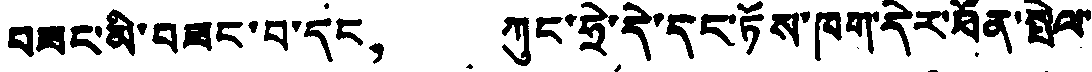བཟང་མི་བཟང་བ་དང， ཀུང་ཧྲེ་དེ་དང་ཏོས་ཁག་དེར་ཐོན་སྤེལ་
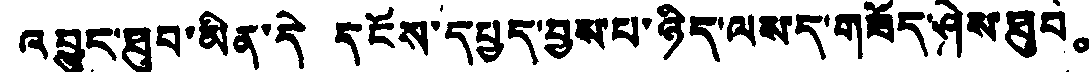འབྱུང་ཐུབ་མིན་དེ དངོས་དཔྱད་བྱས་པ་ཉིད་ལས་ད་གཟོད་ཤེས་ཐུབ。
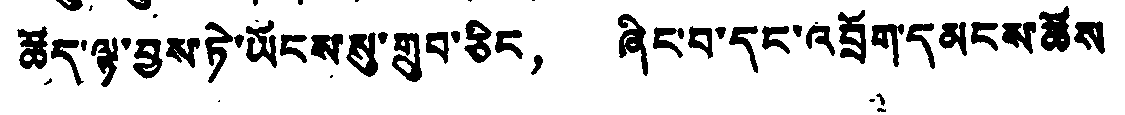ཚོད་ལྟ་བྱས་ཏེ་ཡོངས་སུ་གྲུབ་ཅིང， ཞིང་བ་དང་འབྲོག་དམངས་ཚོས
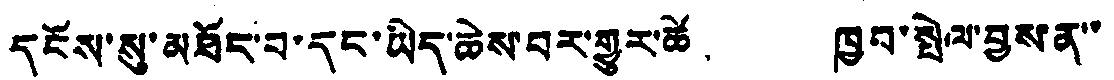དངོས་སུ་མཐོང་བ་དང་ཡིད་ཆེས་བར་གྱུར་ཚེ ཁྱབ་སྤེལ་བྱས་ན་་
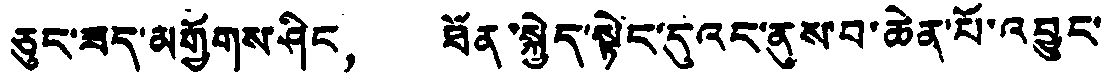ཅུང་ཟད་མགྱོགས་ཤིང， ཐོན་སྐྱེད་སྟེང་དུའང་ནུས་བ་ཆེན་པོ་འབྱུང་
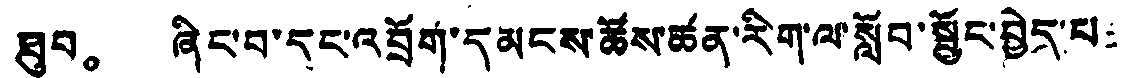ཐུབ。 ཞིང་བ་དང་འབྲོག་དམངས་ཚོས་ཚན་རིག་ལ་སློབ་སྦྱོང་བྱེད་པ
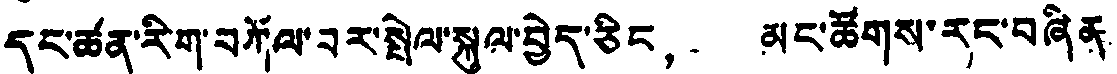དང་ཚན་རིག་བཀོལ་བར་སྤེལ་སྐུལ་བྱེད་ཅིང， མང་ཚོགས་རང་བཞིན
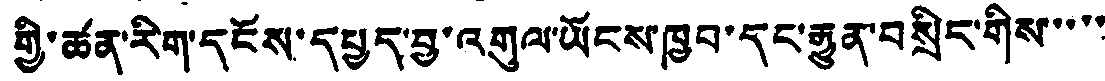གྱི་ཚན་རིག་དངོས་དཔྱད་བྱ་འགུལ་ཡོངས་ཁྱབ་དང་རྒྱུན་བསྲིང་གིས་་་་་
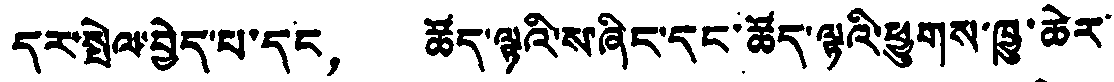དར་སྤེལ་བྱེད་པ་དང， ཚོད་ལྟའི་ས་ཞིང་དང་ཚོད་ལྟའི་ཕྱུགས་ཁྱུ་ཆེར་
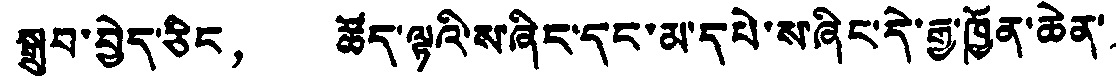སྒྲུབ་བྱེད་ཅིང， ཚོད་ལྟའི་ས་ཞིང་དང་མ་དཔེ་ས་ཞིང་དེ་རྒྱ་ཁྱོན་ཆེན་
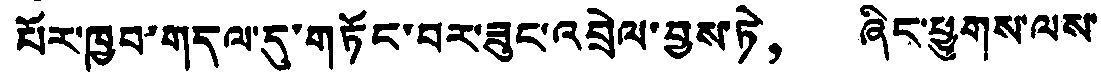པོར་ཁྱབ་གདལ་དུ་གཏོང་བར་ཟུང་འབྲེལ་བྱས་ཏེ， ཞིང་ཕྱུགས་ལས་
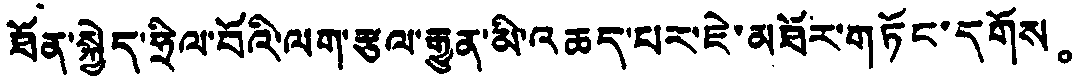ཐོན་སྐྱེད་ཧྲིལ་བོའི་ལག་རྩལ་རྒྱུན་མི་འཆད་པར་ཇེ་མཐོར་གཏོང་དགོས。
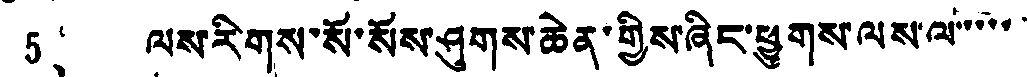5、 ལས་རིགས་སོ་སོས་ཤུགས་ཆེན་གྱིས་ཞིང་ཕྱུགས་ལས་ལ་་་་་
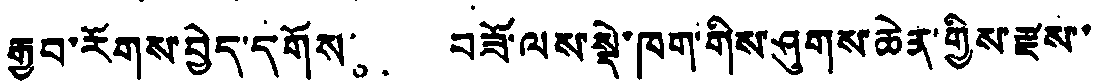རྒྱབ་རོགས་བྱེད་དགོས。 བཟོ་ལས་སྡེ་ཁག་གིས་ཤུགས་ཆེན་གྱིས་རྫས་་
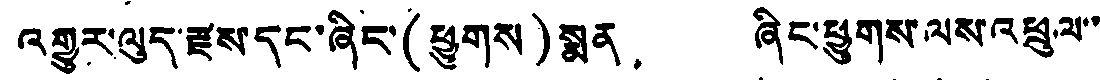འགྱུར་ལུད་རྫས་དང་ཞིང་（ཕྱུགས）སྨན， ཞིང་ཕྱུགས་ལས་འཕྲུལ་་
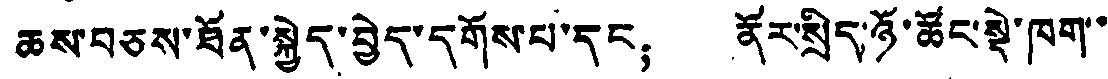ཆས་བཅས་ཐོན་སྐྱེད་བྱེད་དགོས་པ་དང； ནོར་སྲིད་ཉོ་ཚོང་སྡེ་ཁག་་
